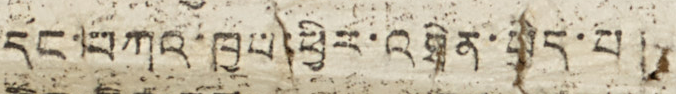དང་བཀའ་ཁྱབ་ཕྱིར་འཐེན་བྱེད་པ།
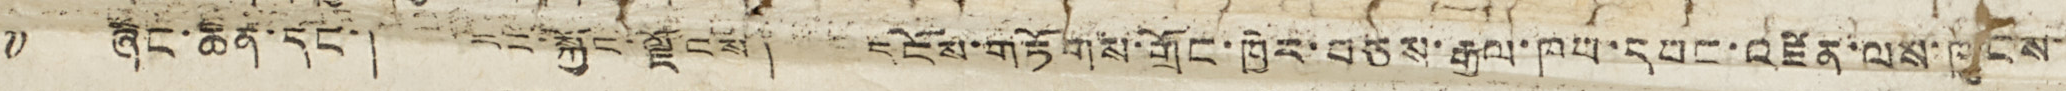༧ ཞིང་ཆེན་དང་། རང་སྐྱོང་ལྗོངས། དངོས་གཏོགས་གྲོང་ཁྱེར་བཅས་རྒྱལ་ཁབ་དབང་འཛིན་ལས་ཁུངས་
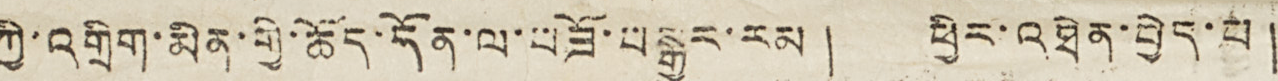ཀྱི་འགྲིག་མིན་གྱི་ཆོད་དོན་ལ་བཟོ་བསྒྱུར་རམ། ཕྱིར་འཐེན་བྱེད་པ།
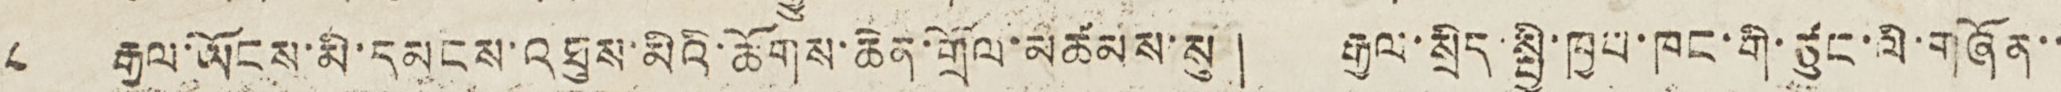༦ རྒྱལ་ཡོངས་མི་དམངས་འཐུས་མིའི་ཚོགས་ཆེན་གྲོལ་མཚམས་སུ། རྒྱལ་སྲིད་སྤྱི་ཁྱབ་ཁང་གི་ཙུང་ལི་གཞོན་་
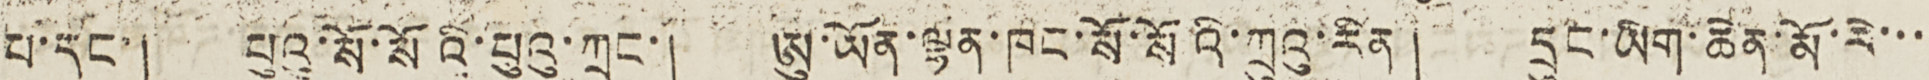པ་དང་། པུའུ་སོ་སོའི་པུའུ་ཀྲང་། ཨུ་ཡོན་ལྷན་ཁང་སོ་སོའི་ཀྲུའུ་རིན། དྲུང་ཡིག་ཆེན་མོ་རེ་་་་་
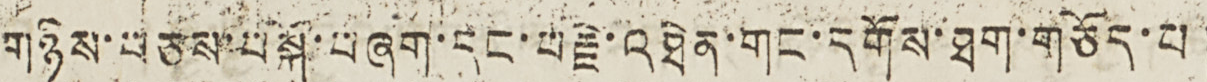གཉིས་བཅས་བསྐོ་བཞག་དང་བརྗེ་འཐེན་གང་དགོས་ཐག་གཅོད་པ།
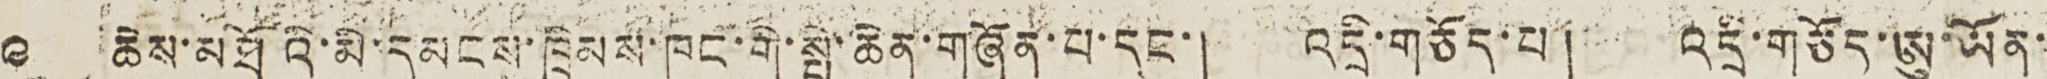༩ ཆེས་མཐོའི་མི་དམངས་ཁྲིམས་ཁང་གི་སྤྱི་ཆེན་གཞོན་པ་དང་། འདྲི་གཅོད་པ། འདྲི་གཅོད་ཨུ་ཡོན་་
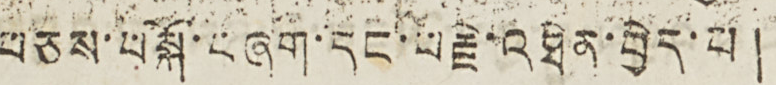བཅས་བསྐོ་བཞག་དང་བརྗེ་འཐེན་བྱེད་པ།
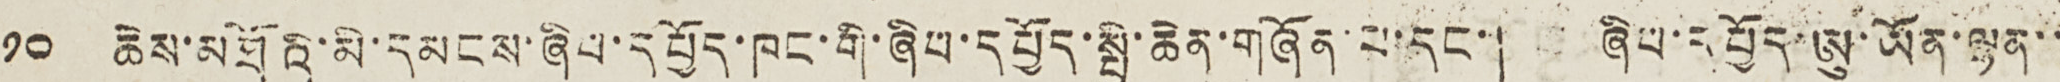༡༠ ཆེས་མཐོའི་མི་དམངས་ཞིབ་དཔྱོད་ཁང་གི་ཞིབ་དཔྱོད་སྤྱི་ཆེན་གཞོན་པ་དང་། ཞིབ་དཔྱོད་ཨུ་ཡོན་ལྷན་་
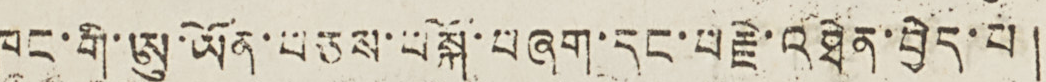ཁང་གི་ཨུ་ཡོན་བཅས་བསྐོ་བཞག་དང་བརྗེ་འཐེན་བྱེད་པ།
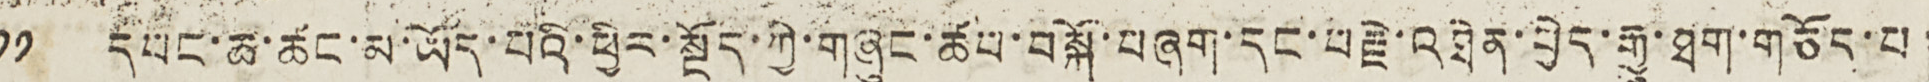༡༡ དབང་ཆ་ཚང་མ་ཡོད་པའི་ཕྱིར་སྔོད་ཀྱི་གཞུང་ཆབ་བསྐོ་བཞག་དང་བརྗེ་འཐེན་བྱེད་རྒྱུ་ཐག་གཅོད་པ།
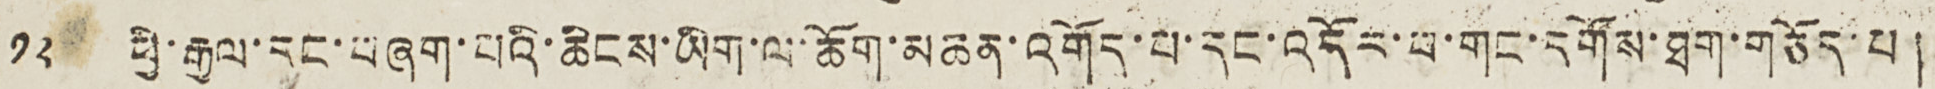༡༢ ཕྱི་རྒྱལ་དང་བཞག་པའི་ཆིངས་ཡིག་ལ་ཆོག་མཆན་འགོད་པ་དང་འདོར་བ་གང་དགོས་ཐག་གཅོད་པ།
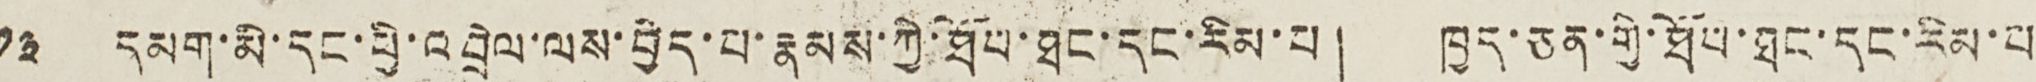༡༣ དམག་མི་དང་ཕྱི་འབྲེལ་ལས་བྱེད་པ་རྣམས་ཀྱི་ཐོབ་ཐང་དང་རིམ་པ། ཁྱད་ཅན་གྱི་ཐོབ་ཐང་དང་རིམ་པ་
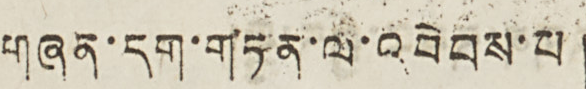གཞན་དག་གཏན་ལ་འབེབས་པ།
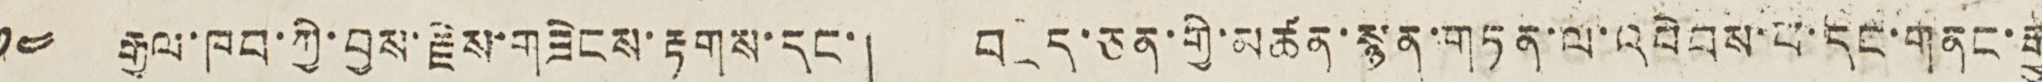༡༤ རྒྱལ་ཁབ་ཀྱི་བྱས་རྗེས་གཟེངས་རྟགས་དང་། བ ད་ཅན་གྱི་མཚན་སྙན་སྙན་གཏན་ལ་འབེབས་བ་དང་གནང་རྒྱུ
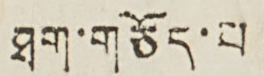ཐག་གཅོད་པ།
